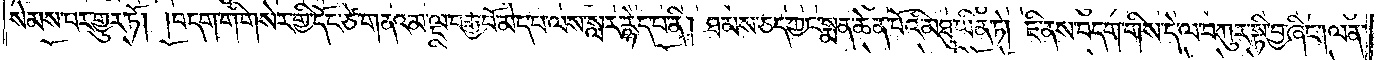སེམས་པར་གྱུར་ཏོ། །བདག་གི་གསེར་གྱི་དོང་ཙེ་གནའ་མ་ལྔ་བརྒྱ་པོ་མེད་པ་ལས་སླར་རྙེད་པ་ནི། ཐམས་ཅད་ཀྱང་སྨན་ཆེན་པོའི་མཐུ་ཡིན་ཏེ། ཇི་ནས་བདག་གིས་དེ་ལ་བཀུར་སྟི་བྱ་ཞིང༌། ལན་
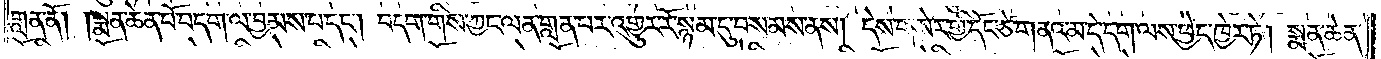གླན་ནོ། །སྨན་ཆེན་པོ་བདག་ལ་བྱམས་པ་དང༌། བདག་གིས་ཀྱང་ལན་གླན་པར་འགྱུར་རོ་སྙམ་དུ་བསམས་ནས། དེས་གསེར་གྱི་དོང་ཙེ་གནའ་མ་དེ་དག་ལས་ཕྱེད་ཁྱེར་ཏེ། སྨན་ཆེན་
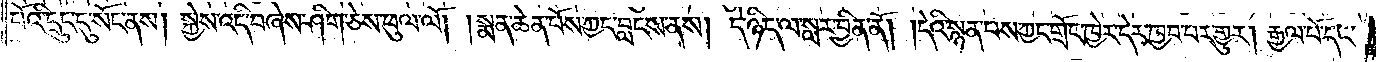པོའི་དྲུང་དུ་སོང་ནས། སྐྱེས་འདི་བཞེས་ཤིག་ཅེས་ཕུལ་ལོ། །སྨན་ཆེན་པོས་ཀྱང་བླངས་ནས། དེ་ཉིད་ལ་སླར་བྱིན་ནོ། །དེའི་སྙན་པས་ཀྱང་གྲོང་ཁྱེར་དེར་ཁྱབ་པར་བྱུར། རྒྱལ་པོ་དང་
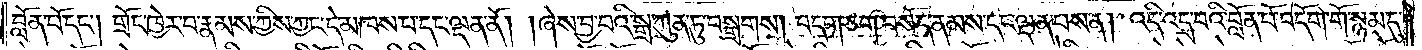བློན་པོ་དང༌། གྲོང་ཁྱེར་བ་རྣམས་ཀྱིས་ཀྱང་དེ་མཁས་པ་དང་ལྡན་ནོ། །ཞེས་བྱ་བའི་སྒྲ་ཀུན་ཏུ་བསྒྲགས། བདག་ཅག་བསོད་ནམས་དང་ལྡན་པས་ན། འདི་འདྲ་བའི་བློན་པོ་བདོག་གོ་སྙམ་དུ་
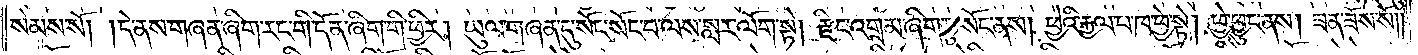སེམས་སོ། །དེ་ནས་གཞན་ཞིག་རང་གི་དོན་ཞིག་གི་ཕྱིར། ཡུལ་གཞན་དུ་སོང་སོང་བ་ལས་སླར་ལོག་སྟེ། རྫིང་འགྲམ་ཞིག་ཏུ་སོང་ནས། ཕྱེའི་རྐྱལ་པ་ཁ་ཕྱེ་སྟེ། ཕྱེ་ཕྱུང་ནས། ཟན་ཟོས་སོ༎
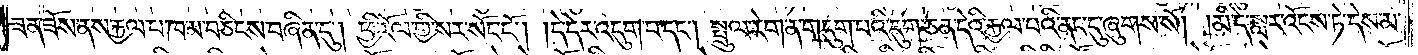ཟན་ཟོས་ནས་རྐྱལ་པ་ཁམ་བཅིངས་བཞིན་དུ། ཕྱི་རོལ་གྱི་སར་སོང་ངོ༌། །དེ་དེར་འདུག་པ་དང༌། སྤྲུལ་རེག་ན་གདུག་པའི་དུག་ཅན་དེའི་རྐྱལ་བའི་ནང་དུ་ཞུགས་སོ། །མི་དེ་སླར་འོངས་ཏེ་དེས་མ་
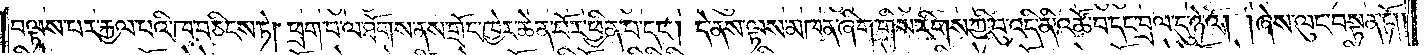བལྟས་པར་རྐྱལ་པའི་ཁ་བཅིངས་ཏེ། ཕྲག་པ་ལ་ཐོགས་ནས་གྲོང་ཁྱེར་ཆེན་པོར་ཕྱིན་པ་དང༌། དེ་ནས་ལྟས་མཁན་ཞིག་གིས་རིགས་ཀྱི་བུ་འདི་ནི་འཚོ་བ་དང་བྲལ་དུ་ཉེའོ། །ཞེས་ལུང་བསྟན་ཏོ༎
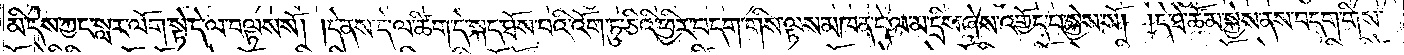མི་དེས་ཀྱང་སླར་ལོག་སྟེ་དེ་ལ་བལྟས་སོ། །དེ་ནས་དེ་ལ་ཚིག་དེ་སྐད་ཐོས་པའི་འོག་ཏུ་ཅིའི་ཕྱིར་བདག་གིས་ལྟས་མཁན་དེ་ལ་མ་དྲིས་ཞེས་འགྱོད་པ་སྐྱེས་སོ། །དེ་ཐེ་ཚོམ་སྐྱེས་ནས་བདག་གིས་
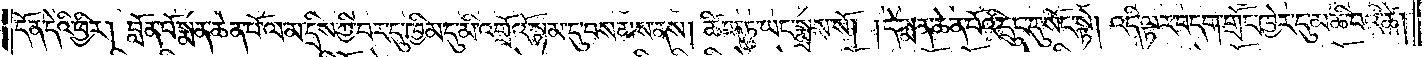དོན་དེའི་ཕྱིར། བློན་པོ་སྨན་ཆེན་པོ་ལ་མ་དྲིས་ཀྱི་བར་དུ་ཁྱིམ་དུ་མི་འགྲོའོ་སྙམ་དུ་བསམས་ནས། ཚིག་ཏུ་ཡང་སྨྲས་སོ། །དེ་སྨན་ཆེན་པོའི་དྲུང་དུ་སོང་སྟེ། འདི་ལྟར་བདག་གྲོང་ཁྱེར་དུ་མཆི་བའི་ཚེ།
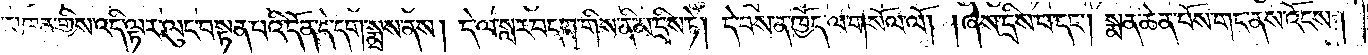ལྟས་མཁན་གྱིས་འདི་ལྟར་ལུང་བསྟན་པའི་དོན་དེ་དག་སྨྲས་ནས། དེ་ལ་སླར་བདག་གིས་ནི་མ་དྲིས་ཏེ། དེ་བས་ན་ཁྱོད་ལ་གསོལ་ལོ། །ཞེས་དྲིས་པ་དང༌། སྨན་ཆེན་པོས་གང་ནས་འོངས།
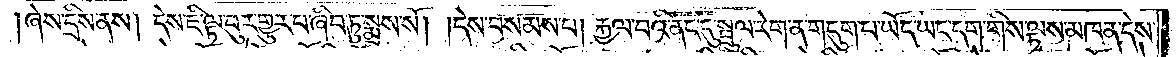ཞེས་དྲིས་ནས། དེས་ཇི་ལྟ་བུར་གྱུར་པ་ཞིབ་ཏུ་སྨྲས་སོ། །དེས་བསམས་པ། རྐྱལ་བའི་ནང་དུ་སྦྲུལ་རེག་ན་གདུག་པ་ཡོད་ཡང་དག་གིས་ལྟས་མཁན་དེས་
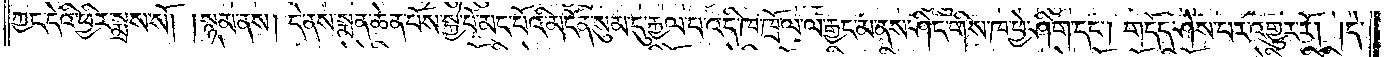ཀྱང་དེའི་ཕྱིར་སྨྲས་སོ། །སྙམ་ནས། དེ་ནས་སྨན་ཆེན་པོས་སྐྱེ་བོ་མང་པོའི་མངོན་སུམ་དུ་རྐྱལ་པ་འདི་ཁ་ཁྲོལ་ལ་རྒྱང་མ་ནས་ཤིང་གིས་ཁ་ཕྱེ་ཤིག་དང༌། གདོད་ཤེས་པར་འགྱུར་རོ། །དེ་
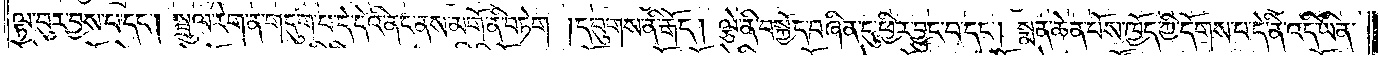ལྟ་བུར་བྱས་པ་དང༌། སྦྲུལ་རེག་ན་གདུག་པ་དེ་དེའི་ནང་ནས་མགོ་ནི་བཏེག །དབུགས་ནི་རྒོད། ལྕེ་ནི་བསྐྱོད་བཞིན་དུ་ཕྱིར་བྱུང་བ་དང༌། སྨན་ཆེན་པོས་ཁྱོད་ཀྱི་དོགས་པ་དེ་ནི་འདི་ཡིན་
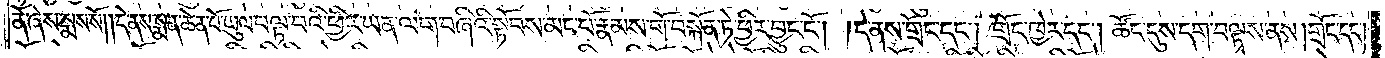ནོ་ཞེས་སྨྲས་སོ། །དེ་ནས་སྨན་ཆེན་པོ་ཡུལ་བལྟ་བའི་ཕྱིར་ཡན་ལག་བཞིའི་སྟོབས་མང་པོ་རྣམས་གོ་བསྐོན་ཏེ་ཕྱིར་བྱུང་ངོ༌། །དེ་ནས་གྲོང་དང༌། གྲོང་ཁྱེར་དང༌། ཚོང་དུས་དག་བལྟས་ནས། གྲོང་དང་
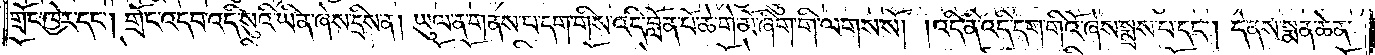གྲོང་ཁྱེར་དང༌། གྲོང་འདབ་འདི་སུའི་ཡིན་ཞེས་དྲིས་ན། ཡུལ་ན་གནས་པ་དག་གིས་འདི་བློན་པོ་ཆེ་གེ་མོ་ཞིག་གི་ལགས་སོ། །འདི་ནི་འདི་དག་གིའོ་ཞེས་སྨྲས་པ་དང༌། དེ་ནས་སྨན་ཆེན་
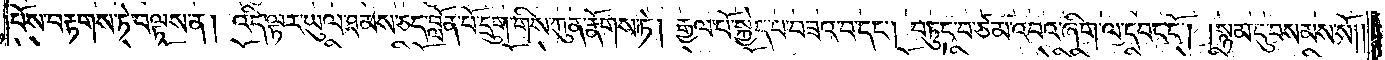པོས་བརྟགས་ཏེ་བལྟས་ན། འདི་ལྟར་ཡུལ་ཐམས་ཅད་བློན་པོ་དྲུག་གིས་ཀུན་རྣོགས་ཏེ། རྒྱལ་པོ་སྐྱེད་པ་བཟའ་བ་དང༌། བཏུང་བ་ཙམ་འབའ་ཞིག་ལ་དབང་ངོ༌། །སྙམ་དུ་བསམས་སོ༎
